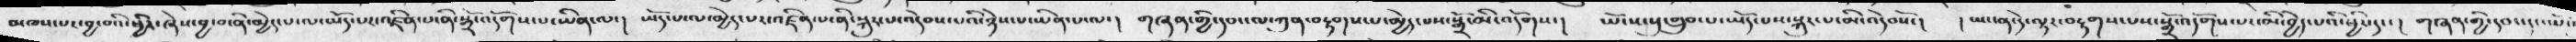མཁས་པར་བྱ་བའི་ཕྱིར་ཞེས་བྱ་བ་ནི་མྱེད་པ་ལ་ཡོད་པར་འཛིན་པ་ནི་སྒྲོ་དགོས་པ་ཡིན་ལ་།  ཡོད་པ་ལ་མྱེད་པར་འཛིན་པ་ནི་སྐུར་པ་འདེབས་པའི་ཉེས་པ་ཡིན་པ་ལ་།   གཞན་གྱི་དབང་ལ་ཀུན་བརྟགས་པ་མྱེ་པས་སྒྲོ་མི་འདོགས་།   ཡོངས་སུ་གྲུབ་པ་ཡོད་པས་སྐུར་པ་མི་འདེབསོ་།  ། ཡང་ན་དེ་ལྟར་བརྟགས་པས་སྒྲོ་འདོགས་པ་མི་བྱེད་པའི་ཕྱིར་དང་།  གཞན་གྱི་དབང་དང་པོ་
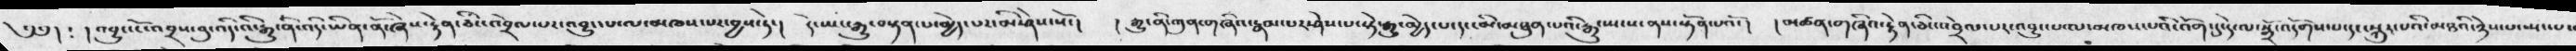༄༅། ༴   ། འབྱུང་པོ་འབྲས་བུ་འདི་འི་རྒྱུ་ནི་འདི་ཡིན་ནོ་ཞེས་རྟེན་ཅིང་འབྲེལ་པར་འབྱུར་པ་ལ་མཁས་པར་བྱས་ཏེ་།  དེ་ཡང་རྒྱུ་བསྟན་པ་མྱེད་པར་མི་ཤེས་སོ་།  ། རྒྱུ་ནི་ཀུན་གཞིའ་རྣམ་པར་ཤེས་པ་སྟེ་རྒྱུ་མྱེད་པ་དང་མི་མཐུན་པའི་རྒྱུ་སྤངས་ནས་སྟོན་པའོ་།   ། མཚན་གཞིའ་རྟེན་ཅིང་འབྲེལ་པར་འབྱུང་པ་ལ་མཁས་པའི་འོག་དུ་དེ་ལ་སྒྲོ་འདགོས་པ་དང་སྐུར་པའི་མཐའི་ཉེས་པ་སྤང་པ་
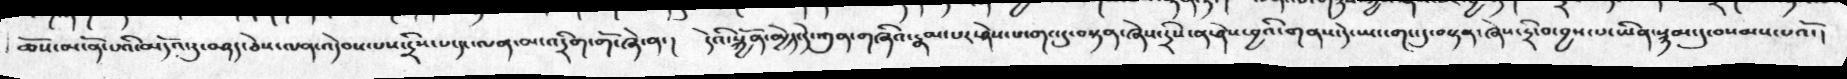ཆོས་མངོན་པའི་མདོའ་དུ་བཤད་ཅེས་ལན་འདེབས་པས་དྲིས་པ་དང་ལན་མ་འདྲིག་གོ་ཞེ་ན་།  དེའི་སྐྱོན་མྱེད་དེ་ཀུན་གཞིའ་རྣམ་པར་ཤེས་པ་གང་དུ་བསྟན་ཞེས་དྲིས་ན་ཤེས་བྱའི་གནས་དེ་ཡང་གང་དུ་བསྟན་ཞེས་དྲི་བ་བྱས་པ་ཡིན་སྙམ་དུ་བསམས་པའོ་།
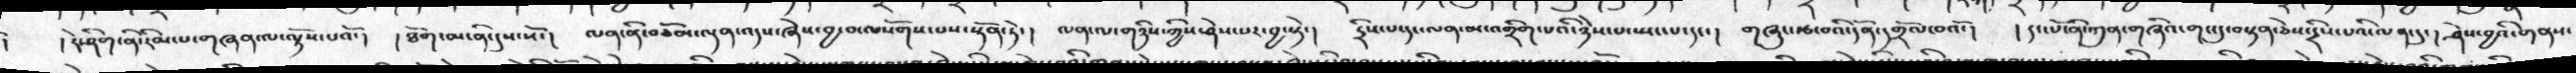།  རེ་ཤིག་ནི་རིམ་པ་གཞན་ལ་ལྟོས་པའོ་།  ། ཐོག་མ་ནི་དུས་སོ་།  ལན་ནི་བཅོམ་ལྡན་འདས་ཞེས་བྱ་བ་ལསོགས་པས་སྟོན་ཏེ་།   ལན་ལ་གཉིས་ཀྱིས་ཤེས་པར་བྱ་སྟེ་།   དྲིས་པ་དང་ལན་མ་འགྲིག་པའི་ཉེས་པ་སྤང་པ་དང་།   གཞུང་རྩ་བའི་དོན་དགྲོལ་བའོ་།  ། དང་པོ་ནི་ཀུན་གཞིའ་གང་དུ་བསྟན་ཅེས་དྲིས་པའི་ལན་དུ་།  ཤེས་བྱའི་གནས་
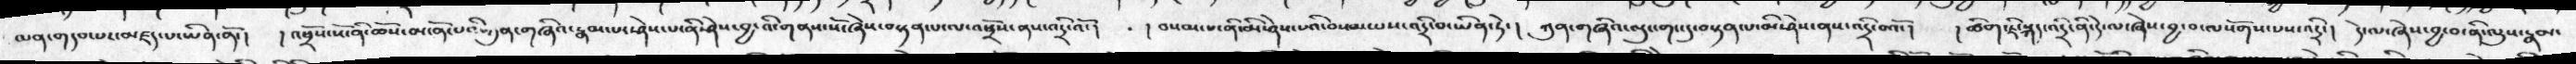ལན་གདབ་པར་མཛད་པ་ཡིན་ནོ་།  ། འཕྲོས་སོ་ནི་ཆོས་མངོན་པའི་དུན་གཞིའ་རྣམ་པར་ཤེས་པ་ནི་ཤེས་བྱ་འི་གནས་སོ་ཞེས་བསྟན་པ་ལ་འཕྲོས་ནས་འདྲི་འོ་།   ། བསམ་པ་ནི་མི་ཤེས་པའི་པའི་བསམ་པས་འདྲི་བ་ཡིན་ཏེ་།  ཀུན་གཞིའ་ལུང་གང་དུ་བསྟན་པ་མི་ཤེས་ནས་འདྲི་བའོ་།  །  ཚིག་ཇི་སྐད་འདྲི་ནི་དེ་ལ་ཞེས་བྱ་བ་ལསོགས་པས་འདྲི་།   དེ་ལས་ཞེས་བྱ་བ་ནི་ལུས་རྣམ་
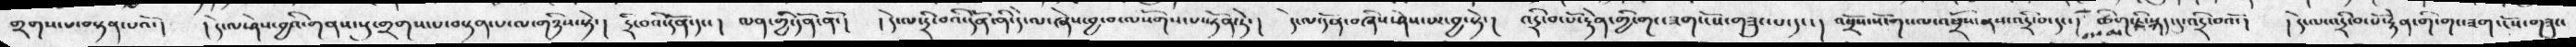གྲགས་པ་བསྟན་པའོ་།   ། དེ་ལ་ཤེས་བྱའི་གནས་སུ་གྲགས་པ་བསྟན་པ་ལ་གཉིས་སྟེ་།  དྲི་བའི་དོན་དང་།  ལན་གྱི་དོན་ནོ་།  ། དེ་ལ་དྲི་བའི་དོན་ནི་དེ་ལ་ཞེས་བྱ་བ་ལསོགས་པ་སྟོན་ཏེ་།  དེ་ལ་དོན་བཞིས་ཤེས་པ་་བྱ་སྟེ་།  འདྲི་བ་པོ་རྟེན་གྱི་གང་ཟག་ངོས་གཟུང་པ་དང་།   འཕྲོས་སོ་གང་ལ་འཕྲོས་ནས་འདྲོ་བ་དང་།  ཚིག་ཇི་སྐད་དུ་འདྲི་བའོ་།  ། དེ་ལ་འདྲི་བ་པོ་རྟེན་གི་གང་ཟག་ངོས་གཟུང་
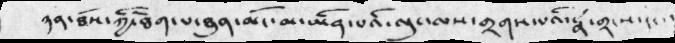ཉན་ཐོས་ཀྱི་ཐེག་པ་ཐུན་མོང་མ་ཡིན་པའི་ལུང་ལས་གྲགས་པའི་རྣཾ་གྲངས་དང་།
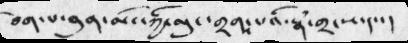ཐེག་པ་ཐུན་མོང་ཀྱི་ལུང་གྲགས་པའི་རྣཾ་གྲངས་དང་།
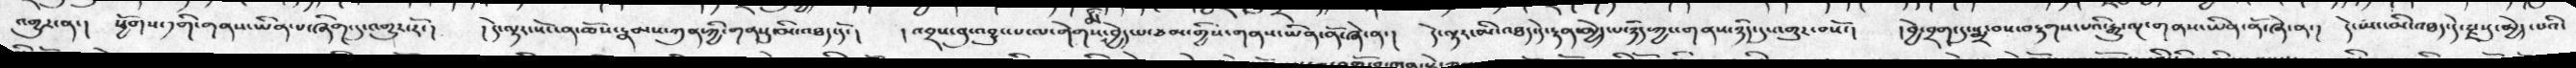འགྱུར་ན་།  ཕྱོགས་༡གི་གནས་ཡིན་པ་ཞིག་དུ་འགྱུར་རོ་།  ། དེ་ལྟར་སོང་ན་ཆོས་རྣམས་ཀུན་ཀྱི་གནསུ་མི་འཐད་དོ་།  ། འབྲས་བུ་འབྱུང་པ་ལ་གེགས་བྱེད་པ་ཙམ་གྱིས་གནས་ཡིན་ནོ་ཞེ་ན་།  དེ་ལྟར་མི་འཐད་དེ་རྟན་མྱེད་པ་ཉིད་ཀྱང་གནས་ཉིད་དུ་འགྱུར་བསོ་།  །བྱེ་བྲག་དུ་སྨྲ་བས་བརྟགས་པའི་རྒྱུ་ལྔ་གནས་ཡིན་ནོ་ཞེ་ན་།   དེ་མ་མི་འཐད་དེ་རྫསུ་མྱེད་པའི་
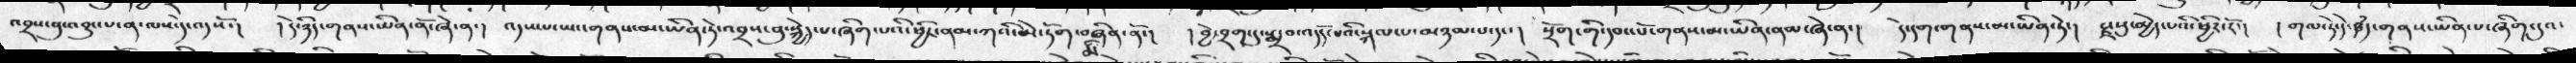འབྲས་བུ་འབྱུང་པ་ན་ལས་་དེ་འདསོ་།  ། དེ་ཉིད་གནས་ཡིན་ནོ་ཞེ་ན་།  འདས་པ་ཡང་གནས་མ་ཡིན་ཏེ་འབྲས་བུ་སྐྱེད་པ་ཞིག་པའི་ཕྱིར་ནམ་ཀའི་མེ་ཏོག་བཞིན་ནོ་།  ། བྱེ་བྲག་དུ་སྨྲ་བ་འདོད་པའི་སྐལ་པ་མཉམས་པ་དང་།  སྲོག་གི་དབང་པོ་གནས་མ་ཡིན་ནམ་ཞེ་ན་།  དེ་དག་གནས་མ་ཡིན་ཏེ་།  རྫསུ་མྱེད་པའི་ཕྱིར་རོ་།  ། གལ་ཏེ་དེ་ཐཾད་གནས་ཡིན་པ་ཞིག་དུའ་
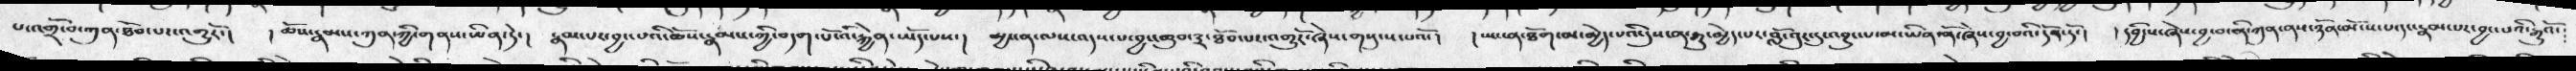པ་འགྲོ་བ་ཀུན་ཐོབ་པར་འགྱུརོ་།  ། ཆོས་རྣམས་ཀུན་ཀྱི་གནས་ཡིན་དེ་།  རྣམ་པར་བྱང་པའི་ཆོས་རྣམས་ཀྱི་བདག་པོ་འི་རྐྱེན་ཡོད་པས་།  མྱ་ངན་ལས་འདས་པ་བྱང་ཆུབ་༣་ཐོབ་པར་འགྱུརོ་ཞེས་གསུངས་པའོ་།  ། ཡང་ན་ཐོག་མ་མྱེད་པའི་དུས་ན་རྒྱུ་མྱེད་པར་བློ་བུར་དུ་འབྱུང་པ་མ་ཡིན་ནོ་ཞེས་བྱ་བའི་དོན་དོ་།  ། དབྱིངས་ཞེས་བྱ་བ་ནི་ཀུན་ནས་ཉོན་མོངས་པ་དང་རྣམ་པར་བྱང་པའི་རྒྱུའོ་
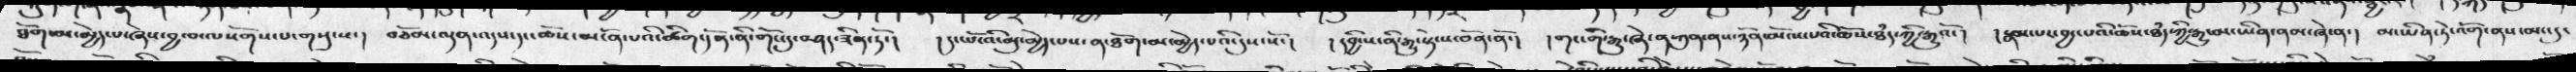ཐོག་མ་མྱེད་པ་ཞེས་བྱ་བ་ལསོགས་པ་གསུངས་།  བཅོམ་ལྡན་འདས་དང་ཆོས་མངོན་པའི་ཚིག་དོན་ནི་གོང་དུ་བཤད་ཟིན་ཏོ་།  ། དང་པོ་འི་མུ་མྱེད་པས་ན་ཐོག་མ་མྱེད་པའི་དུས་སོ་།  །དབྱིངས་ནི་རྒྱུ་སྟེ་ས་བོན་ནོ་།  ། གང་གི་རྒྱུ་ཞེ་ན་ཀུན་ནས་ཉོན་མོངས་པའི་ཆོས་ཐཾད་ཀྱི་རྒྱུའོ་།  ། རྣམ་པར་བྱང་པའི་ཆོས་ཐཾད་ཀྱི་རྒྱུ་མ་ཡན་ནམ་ཞེ་ན་།  མ་ཡིན་ཏེ་འོག་ནས་མང་དུ་
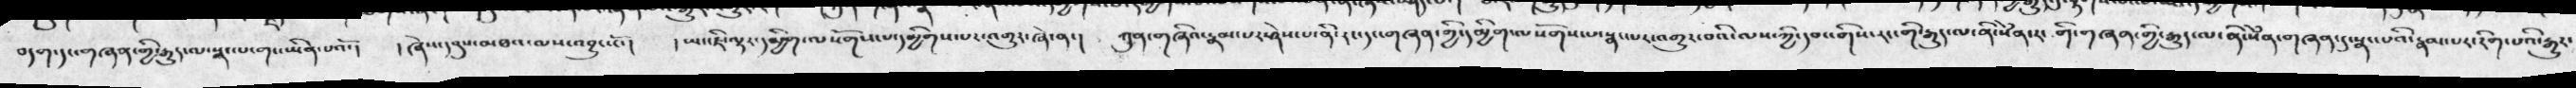བདག་དང་གཞན་གྱི་རྒྱུད་ལ་སྣང་པ་གང་ཡིན་པའོ་།  །ཞེས་དབུས་མཐའ་ལས་འབྱུངསོ་།  ། ཡང་ཇི་ལྟར་དམྱིག་ལསོགས་པ་དམྱིགས་པར་འགྱུར་ཞེ་ན་། ཀུན་གཞིའ་རྣམ་པར་ཤེས་པ་ནི་རང་དང་གཞན་ཀྱི་དམྱིགས་ལསོགས་པ་སྣང་པར་འགྱུར་བའི་ལས་ཀྱི་དབང་གིས་རང་གི་རྒྱུད་ལ་ནི་སེྃན་རང་གི་གཞན་གྱི་རྒྱུད་ལ་ནི་སེཾན་གཞན་དུ་སྣང་པའི་རྣམ་པར་རིག་པའི་རྒྱུར་
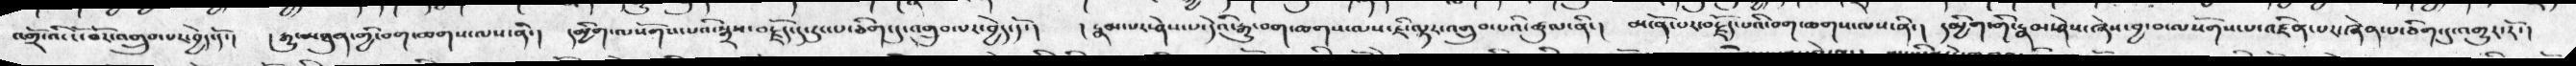འགྲོ་འི་ངོ་བོར་འགྲུབ་པར་བྱེད་དོ་།   ། རྒྱུ་མཐུན་གྱི་བག་ཆགས་ལས་ནི་། དམྱིག་ལསོགས་པའི་སྒྲས་བརྗོད་དུ་རུང་པ་ཅིག་དུ་འགྲུབ་པར་བྱེད་དོ་།  ། རྣམ་པར་ཤེས་པ་དེའི་རྒྱུད་བག་ཆགས་ལས་ཇི་ལྟར་འགྲུབ་པའི་ཚུལ་ནི་།  མངོན་པར་བརྗོད་པའི་བག་ཆགས་ལས་ནི་།  དམྱིག་གི་རྣམ་ཤེས་ཞེས་བྱ་བ་ལསོགས་པ་འཛིན་པར་ཞེན་པ་ཅིག་དུ་འགྱུར་རོ་།
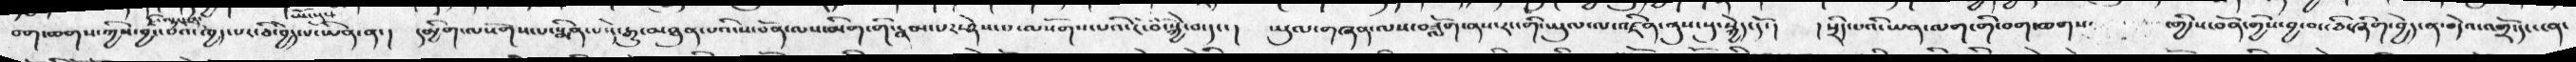བག་ཆགས་ཀྱིས་བྱང་བའི་ཁྱད་པར་ཅི་བྱེད་པ་ཡིན་ན་།  དམྱིག་ལསོགས་པ་སྨིན་པའི་རྒྱུ་མཐུན་པའི་ས་བོན་ལས་མིག་གི་རྣམ་པར་ཤེས་པ་ལསོགས་པའི་ངོ་བོ་སྐྱེ་བ་དང་།  ཡུལ་གཞན་ལས་བཟློག་ནས་རང་གི་ཡུལ་ལ་འཛིན་ནུས་སུ་སྐྱེད་དོ་།  ། སྲིད་པའི་ཡན་ལག་གི་བག་ཆགས་   ་གྱི་ས་བོན་གྱིས་བྱ་བ་ཅི་ཞིག་བྱེད་ན་བདེའ་འགྲོ་དང་ངན་
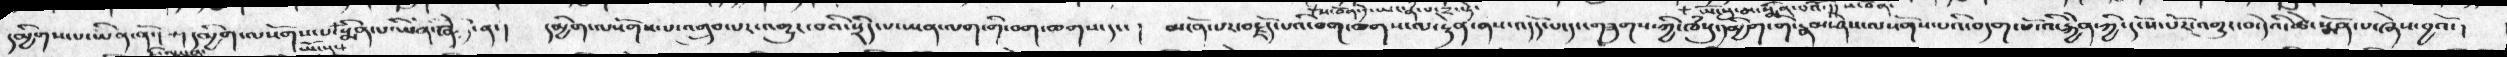དམྱིགས་པ་ཡིན་ནོ་།  དེ་ལྟར་ན་། དམྱིག་ལསོགས་པ་ཡོངས་སུ་སྨིན་པ་ཡིན་ཞེ་ན་།  དམྱིགས་ལསོགས་པ་འགྲུབ་པར་འགྱུར་བའི་སྲིད་པ་ཡན་ལག་གི་བག་ཆགས་དང་།  མངོན་པར་བརྗོད་པའི་བག་ཆགས་ལ་རྟེན་ནས་འདོད་པ་དང་གཟུགས་ཀྱི་ཁཾསུ་དམྱིག་གི་རྣམ་ཤེས་ལསོགས་པའི་བདག་པོ་འི་རྐྱེན་ཀྱི་དངོས་པར་འགྱུར་བ་དེའི་ཚེ་སྨོན་པ་ཞེས་བྱའོ་།
